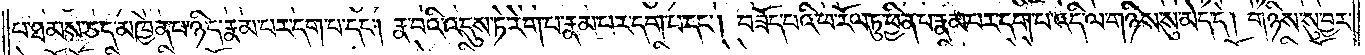པ་ཐམས་ཅད་མཁྱེན་པ་ཉིད་རྣམ་པར་དག་པ་དང༌། རྣ་བའི་འདུས་ཏེ་རེག་པ་རྣམ་པར་དག་པ་དང༌། བཟོད་པའི་ཕ་རོལ་ཏུ་ཕྱིན་པ་རྣམ་པར་དག་པ་འདི་ལ་གཉིས་སུ་མེད་དེ། གཉིས་སུ་བྱར་
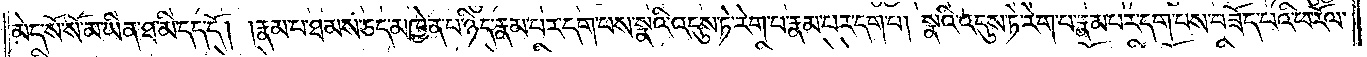མེད་སོ་སོ་མ་ཡིན་ཐ་མི་དད་དོ། །རྣམ་པ་ཐམས་ཅད་མཁྱེན་པ་ཉིད་རྣམ་པར་དག་པས་སྣའི་འདུས་ཏེ་རེག་པ་རྣམ་པར་དག་པ། སྣའི་འདུས་ཏེ་རེག་པ་རྣམ་པར་དག་པས་བཟོད་པའི་ཕ་རོལ་
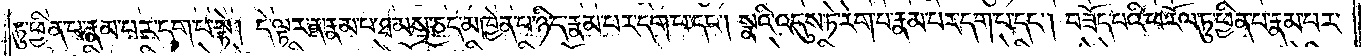ཏུ་ཕྱིན་པ་རྣམ་པར་དག་པ་སྟེ། དེ་ལྟར་ན་རྣམ་པ་ཐམས་ཅད་མཁྱེན་པ་ཉིད་རྣམ་པར་དག་པ་དང༌། སྣའི་འདུས་ཏེ་རེག་པ་རྣམ་པར་དག་པ་དང༌། བཟོད་པའི་ཕ་རོལ་ཏུ་ཕྱིན་པ་རྣམ་པར་
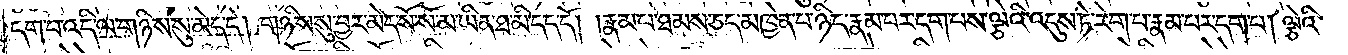དག་པ་འདི་ལ་གཉིས་སུ་མེད་དེ། གཉིས་སུ་བྱར་མེད་སོ་སོ་མ་ཡིན་ཐ་མི་དད་དོ། །རྣམ་པ་ཐམས་ཅད་མཁྱེན་པ་ཉིད་རྣམ་པར་དག་པས་ལྕེའི་འདུས་ཏེ་རེག་པ་རྣམ་པར་དག་པ། ལྕེའི་
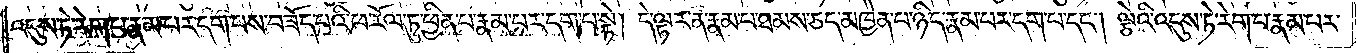འདུས་ཏེ་རེག་པ་རྣམ་པར་དག་པས་བཟོད་པའི་ཕ་རོལ་ཏུ་ཕྱིན་པ་རྣམ་པར་དག་པ་སྟེ། དེ་ལྟར་ན་རྣམ་པ་ཐམས་ཅད་མཁྱེན་པ་ཉིད་རྣམ་པར་དག་པ་དང༌། ལྕེའི་འདུས་ཏེ་རེག་པ་རྣམ་པར་
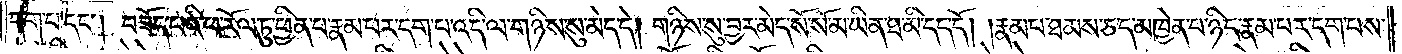དག་པ་དང༌། བཟོད་པའི་ཕ་རོལ་ཏུ་ཕྱིན་པ་རྣམ་པར་དག་པ་འདི་ལ་གཉིས་སུ་མེད་དེ། གཉིས་སུ་བྱར་མེད་སོ་སོ་མ་ཡིན་ཐ་མི་དད་དོ། །རྣམ་པ་ཐམས་ཅད་མཁྱེན་པ་ཉིད་རྣམ་པར་དག་པས་
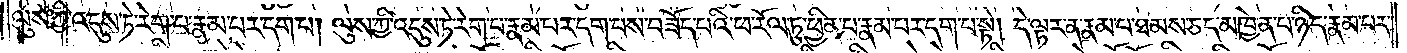ལུས་ཀྱི་འདུས་ཏེ་རེག་པ་རྣམ་པར་དག་པ། ལུས་ཀྱི་འདུས་ཏེ་རེག་པ་རྣམ་པར་དག་པས་བཟོད་པའི་ཕ་རོལ་ཏུ་ཕྱིན་པ་རྣམ་པར་དག་པ་སྟེ། དེ་ལྟར་ན་རྣམ་པ་ཐམས་ཅད་མཁྱེན་པ་ཉིད་རྣམ་པར་
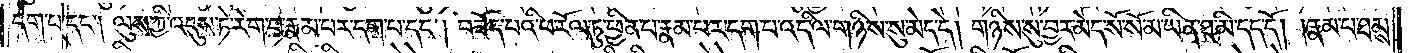དག་པ་དང༌། ལུས་ཀྱི་འདུས་ཏེ་རེག་པ་རྣམ་པར་དག་པ་དང༌། བཟོད་པའི་ཕ་རོལ་ཏུ་ཕྱིན་པ་རྣམ་པར་དག་པ་འདི་ལ་གཉིས་སུ་མེད་དེ། གཉིས་སུ་བྱར་མེད་སོ་སོ་མ་ཡིན་ཐ་མི་དད་དོ། །རྣམ་པ་ཐམས་
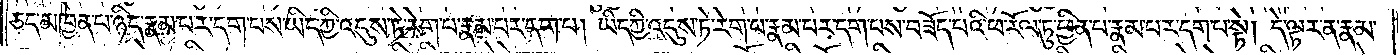ཅད་མཁྱེན་པ་ཉིད་རྣམ་པར་དག་པས་ཡིད་ཀྱི་འདུས་ཏེ་རེག་པ་རྣམ་པར་དག་པ། ཡིད་ཀྱི་འདུས་ཏེ་རེག་པ་རྣམ་པར་དག་པས་བཟོད་པའི་ཕ་རོལ་ཏུ་ཕྱིན་པ་རྣམ་པར་དག་པ་སྟེ། དེ་ལྟར་ན་རྣམ་
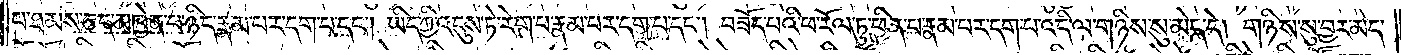པ་ཐམས་ཅད་མཁྱེན་པ་ཉིད་རྣམ་པར་དག་པ་དང༌། ཡིད་ཀྱི་འདུས་ཏེ་རེག་པ་རྣམ་པར་དག་པ་དང༌། བཟོད་པའི་ཕ་རོལ་ཏུ་ཕྱིན་པ་རྣམ་པར་དག་པ་འདི་ལ་གཉིས་སུ་མེད་དེ། གཉིས་སུ་བྱར་མེད་
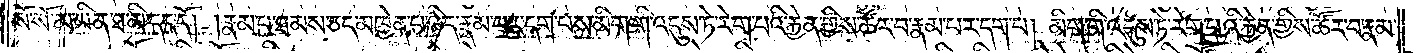སོ་སོ་མ་ཡིན་ཐ་མི་དད་དོ། །རྣམ་པ་ཐམས་ཅད་མཁྱེན་པ་ཉིད་རྣམ་པར་དག་པས་མིག་གི་འདུས་ཏེ་རེག་པའི་རྐྱེན་གྱིས་ཚོར་བ་རྣམ་པར་དག་པ། མིག་གི་འདུས་ཏེ་རེག་པའི་རྐྱེན་གྱིས་ཚོར་བ་རྣམ་
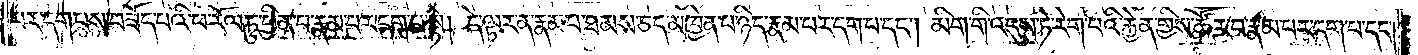པར་དག་པས་བཟོད་པའི་ཕ་རོལ་ཏུ་ཕྱིན་པ་རྣམ་པར་དག་པ་སྟེ། དེ་ལྟར་ན་རྣམ་པ་ཐམས་ཅད་མཁྱེན་པ་ཉིད་རྣམ་པར་དག་པ་དང༌། མིག་གི་འདུས་ཏེ་རེག་པའི་རྐྱེན་གྱིས་ཚོར་བ་རྣམ་པར་དག་པ་དང༌།
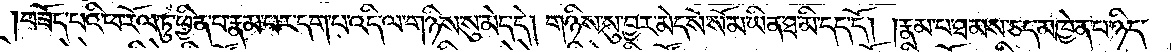བཟོད་པའི་ཕ་རོལ་ཏུ་ཕྱིན་པ་རྣམ་པར་དག་པ་འདི་ལ་གཉིས་སུ་མེད་དེ། གཉིས་སུ་བྱར་མེད་སོ་སོ་མ་ཡིན་ཐ་མི་དད་དོ། །རྣམ་པ་ཐམས་ཅད་མཁྱེན་པ་ཉིད་
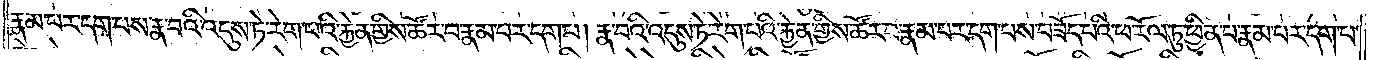རྣམ་པར་དག་པས་རྣ་བའི་འདུས་ཏེ་རེག་པའི་རྐྱེན་གྱིས་ཚོར་བ་རྣམ་པར་དག་པ། རྣ་བའི་འདུས་ཏེ་རེག་པའི་རྐྱེན་གྱིས་ཚོར་བ་རྣམ་པར་དག་པས་བཟོད་པའི་ཕ་རོལ་ཏུ་ཕྱིན་པ་རྣམ་པར་དག་པ་
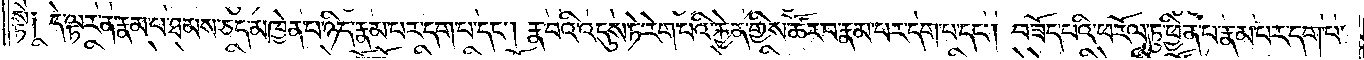སྟེ༑ དེ་ལྟར་ན་རྣམ་པ་ཐམས་ཅད་མཁྱེན་པ་ཉིད་རྣམ་པར་དག་པ་དང༌། རྣ་བའི་འདུས་ཏེ་རེག་པའི་རྐྱེན་གྱིས་ཚོར་བ་རྣམ་པར་དག་པ་དང༌། བཟོད་པའི་ཕ་རོལ་ཏུ་ཕྱིན་པ་རྣམ་པར་དག་པ་
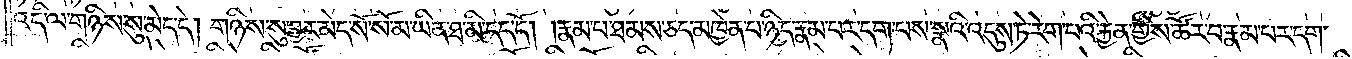འདི་ལ་གཉིས་སུ་མེད་དེ། གཉིས་སུ་བྱར་མེད་སོ་སོ་མ་ཡིན་ཐ་མི་དད་དོ། །རྣམ་པ་ཐམས་ཅད་མཁྱེན་པ་ཉིད་རྣམ་པར་དག་པས་སྣའི་འདུས་ཏེ་རེག་པའི་རྐྱེན་གྱིས་ཚོར་བ་རྣམ་པར་དག་
